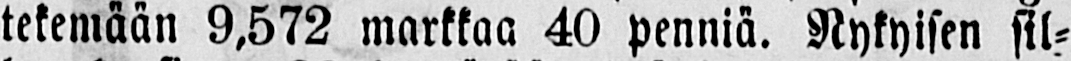tekemään 9,572 markkaa 40 penniä. Nykyisen sil-
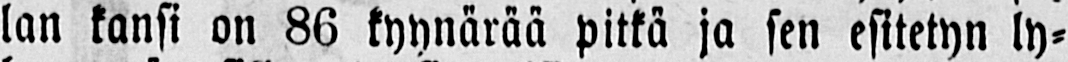lan kansi on 86 kyynärää pitkä ja sen esitetyn ly-
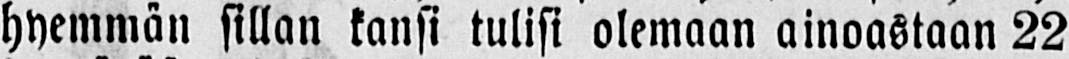hyemmän sillan kansi tulisi olemaan ainoastaan 22
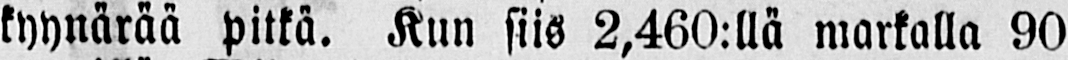kyynärää pitkä. Kun siis 2,460:llä markalla 90
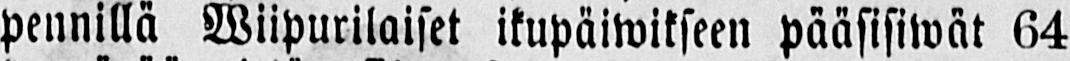pennillä Wiipurilaiset ikupäiwikseen pääsisiwät 64
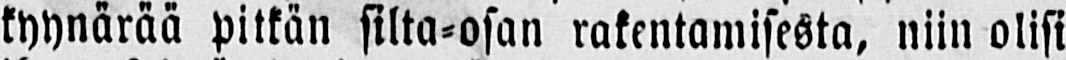kyynärää pitkän silta-osan rakentamisesta, niin olisi
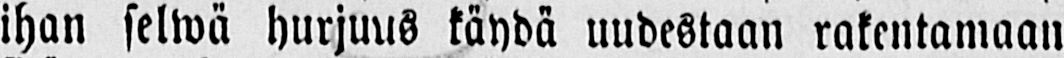ihan selwä hurjuus käydä uudestaan rakentamaan
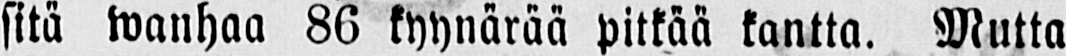sitä wanhaa 86 kyynärää pitkää kantta. Mutta
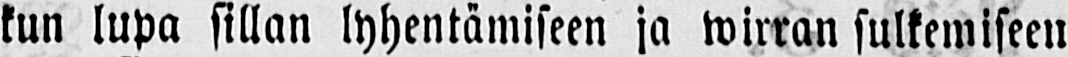kun lupa sillan lyhentämiseen ja wirran sulkemiseen
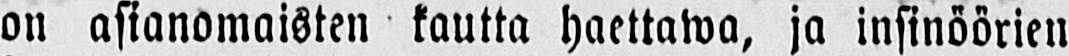on asianomaisten kautta haettawa, ja insinöörien
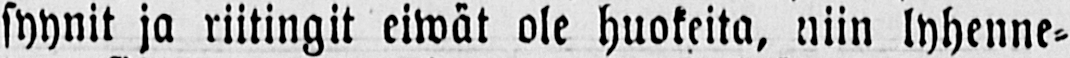syynit ja riitingit eiwät ole huokeita, niin lyhenne-
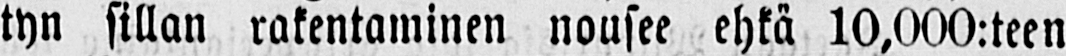tyn sillan rakentaminen nousee ehkä 10,000:teen
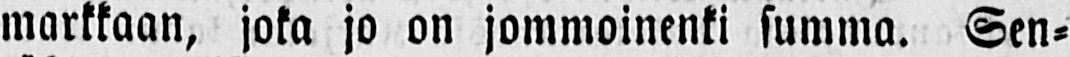markkaan, joka jo on jommoinenki summa. Sen-
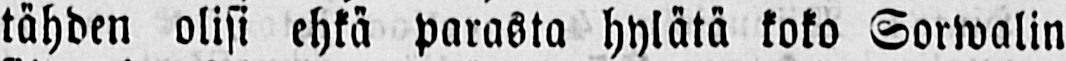tähden olisi ehkä parasta hylätä koko Sorwalin
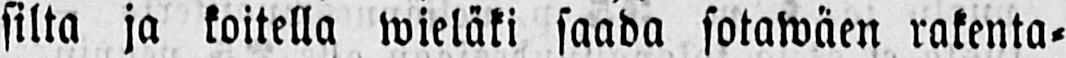silta ja koitella wieläki saada sotawäen rakenta-
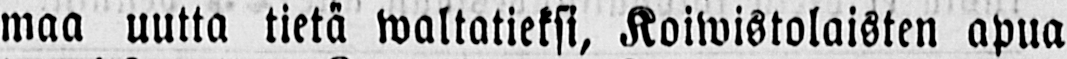maa uutta tietä waltatieksi, Koiwistolaisten apua
